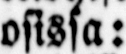osissa:
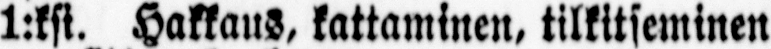1:ksi. Hakkaus, kattaminen, tilkitseminen
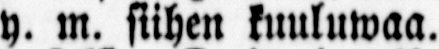y. m. siihen kuuluwaa.
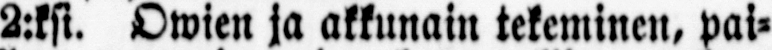2:ksi. Owien ja akkunain tekeminen, pai-
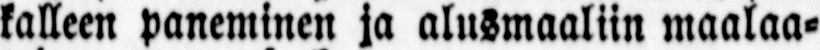kalleen paneminen ja alusmaaliin maalaa-
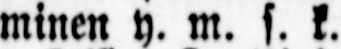minen y. m. s. k.
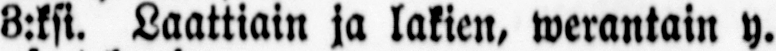3:ksi. Laattiain ja lakien, werantain y.
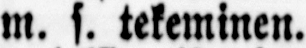m. s. tekeminen.
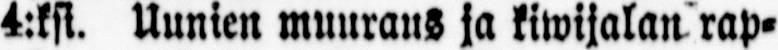4:ksi. Uunien muuraus ja kiwijalan rap-
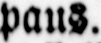paus.
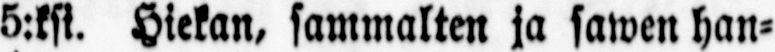5:ksi. Hiekan, sammalten ja sawen han-
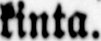kinta.
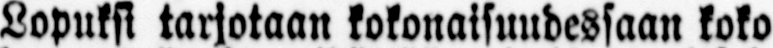Lopuksi tarjotaan kokonaisuudessaan koko
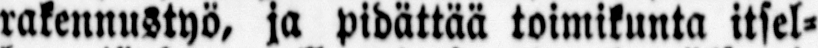rakennustyö, ja pidättää toimikunta itsel-
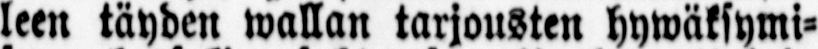leen täyden wallan tarjousten hywäksymi-
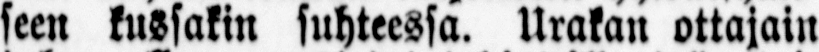seen kussakin suhteessa. Urakan ottajain
